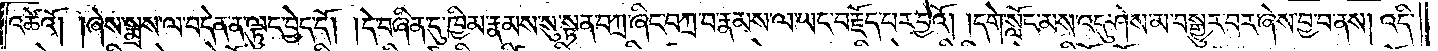འཚེའོ། །ཞེས་སྨྲས་ལ་བདེན་ན་ལྟུང་བྱེད་དོ། །དེ་བཞིན་དུ་ཁྱིམ་རྣམས་སུ་སྟན་བཀྲ་ཞིང་བཀྲ་བ་རྣམས་ལ་ཡང་བརྗོད་པར་བྱའོ། །དགེ་སློང་མས་འདུ་ཤེས་མ་བསྒྱུར་བར་ཞེས་བྱ་བ་ནས། འདི་
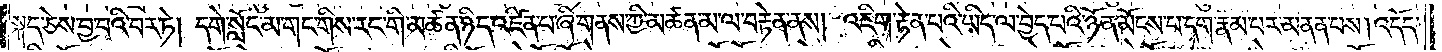སྐད་ཅེས་བྱ་བའི་བར་ཏེ། དགེ་སློང་མ་གང་གིས་རང་གི་མཚན་ཉིད་འཛིན་པ་ཞི་གནས་ཀྱི་མཚན་མ་ལ་བརྟེན་ནས། འཇིག་རྟེན་པའི་ཡིད་ལ་བྱེད་པའི་ཉོན་མོངས་པ་དག་རྣམ་པར་མནན་པས། འདོད་
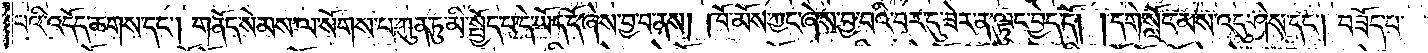པའི་འདོད་ཆགས་དང༌། གནོད་སེམས་ལ་སོགས་པ་ཀུན་ཏུ་མི་སྤྱོད་པ་དེ་ཡོད་དོ་ཞེས་བྱ་བ་ནས། ཁོ་མོས་ཀྱང་ཞེས་བྱ་བའི་བར་དུ་ཟེར་ན་ལྟུང་བྱེད་དོ། །དགེ་སློང་མས་འདུ་ཤེས་དང༌། བཟོད་པ་
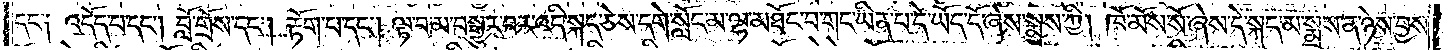དང་༑ འདོད་པ་དང༌། བློ་གྲོས་དང༌། རྟོག་པ་དང༌། ལྟ་བ་མ་བསྒྱུར་བར་འདི་སྐད་ཅེས་དགེ་སློང་མ་ལྷ་མཐོང་བ་གང་ཡིན་པ་དེ་ཡོད་དོ་ཞེས་སྨྲས་ཀྱི། ཁོ་མོས་སོ་ཞེས་དེ་སྐད་མ་སྨྲས་ན་ཉེས་བྱས་
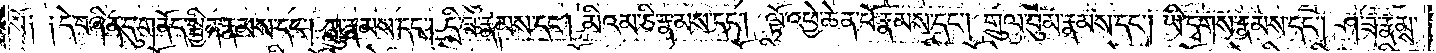སོ༑ ༑དེ་བཞིན་དུ་གནོད་སྦྱིན་རྣམས་དང༌། ཀླུ་རྣམས་དང༌། དྲི་ཟ་རྣམས་དང༌། མིའམ་ཅི་རྣམས་དང༌། ལྟོ་འཕྱེ་ཆེན་པོ་རྣམས་དང༌། གྲུལ་བུམ་རྣམས་དང༌། ཡི་དྭགས་རྣམས་དང༌། ཤ་ཟ་རྣམས་
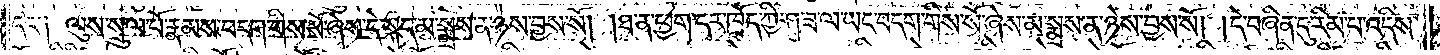དང་༑ ལུས་སྲུལ་པོ་རྣམས་བདག་གིས་སོ་སོ་ཞེས་དེ་སྐད་མ་སྨྲས་ན་ཉེས་བྱས་སོ། །ཐ་ན་ཕྱག་དར་ཁྲོད་ཀྱི་ཤ་ཟ་ལ་ཡང་བདག་གིས་སོ་ཞེས་མ་སྨྲས་ན་ཉེས་བྱས་སོ། །དེ་བཞིན་དུ་རིམ་པ་འདིས་
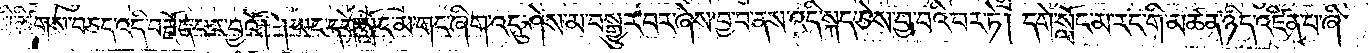སྡོམ་གྱི་ཚིགས་བཅད་འདི་བརྗོད་པར་བྱའོ། །ཡང་དགེ་སློང་མ་གང་ཞིག་འདུ་ཤེས་མ་བསྒྱུར་བར་ཞེས་བྱ་བ་ནས་འདི་སྐད་ཅེས་བྱ་བའི་བར་ཏེ། དགེ་སློང་མ་རང་གི་མཚན་ཉིད་འཛིན་པ་ཞི་
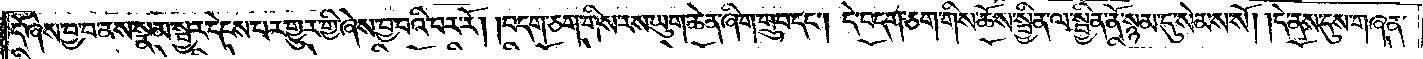དོ་ཞེས་བྱ་བ་ནས་སྣམ་སྦྱར་དེངས་པར་གྱུར་གྱི་ཞེས་བྱ་བའི་བར་རོ། །བདག་ཅག་གིས་རས་ཡུག་ཆེན་ཞིག་གྲུབ་དང༌། དེ་བདག་ཅག་གིས་ཆོས་སྦྱིན་ལ་སྦྱིན་ནོ་སྙམ་དུ་སེམས་སོ། །དེ་ནས་དུས་གཞན་
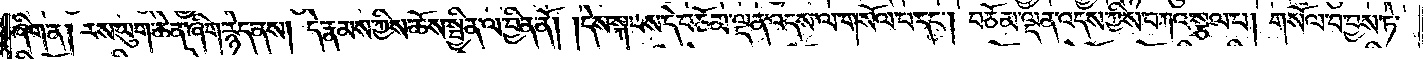ཞིག་ན། རས་ཡུག་ཆེན་ཞིག་རྙེད་ནས། དེ་རྣམས་ཀྱིས་ཆོས་སྦྱིན་ལ་བྱིན་ནོ། །དེས་སྐབས་དེ་བཅོམ་ལྡན་འདས་ལ་གསོལ་པ་དང༌། བཅོམ་ལྡན་འདས་ཀྱིས་བཀའ་སྩལ་པ། གསོལ་བ་བྱས་ཏེ་
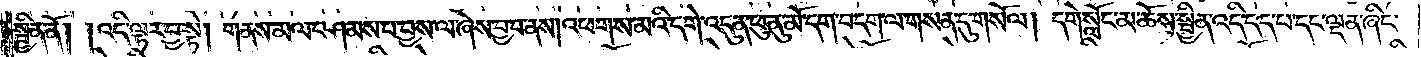སྦྱིན་ནོ། །འདི་ལྟར་བྱ་སྟེ། གནས་མལ་བཤམས་པ་བྱས་ལ་ཞེས་བྱ་བ་ནས། འཕགས་མའི་དགེ་འདུན་ཕུ་ནུ་མོ་དག་བདག་ལ་གསན་དུ་གསོལ། དགེ་སློང་མ་ཆོས་སྦྱིན་འདི་དད་པ་དང་ལྡན་ཞིང་
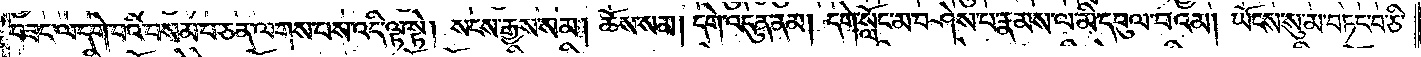བཟང་ལ་དགེ་བའི་བསམ་པ་ཅན་ལགས་པས་འདི་ལྟ་སྟེ། སངས་རྒྱས་སམ། ཆོས་སམ། དགེ་འདུན་ནམ། དགེ་སློང་མ་བཤེས་པ་རྣམས་ལ་མི་དབུལ་བའམ། ཡོངས་སུ་མ་བཏང་བ་ཅི་
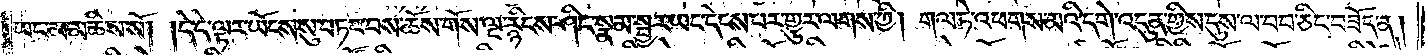ཡང་མ་མཆིས་སོ། །དེ་དེ་ལྟར་ཡོངས་སུ་བཏང་བས་ཆོས་གོས་ལྔ་རྙིངས་ཤིང་སྣམ་སྦྱར་ཡང་དེངས་པར་གྱུར་ལགས་ཀྱི། གལ་ཏེ་འཕགས་མའི་དགེ་འདུན་གྱིས་དུས་ལ་བབ་ཅིང་བཟོད་ན།
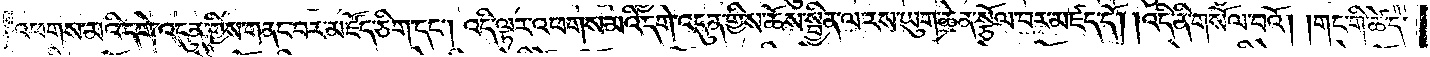འཕགས་མའི་དགེ་འདུན་གྱིས་གནང་བར་མཛོད་ཅིག་དང༌། འདི་ལྟར་འཕགས་མའི་དགེ་འདུན་གྱིས་ཆོས་སྦྱིན་ལ་རས་ཡུག་ཆེན་སྩོལ་བར་མཛད་དོ། །འདི་ནི་གསོལ་བའོ། །གང་གི་ཚེ་དེ་
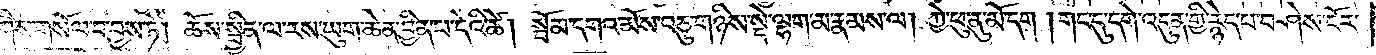དག་གིས་གསོལ་བ་བྱས་ཏེ། ཆོས་སྦྱིན་ལ་རས་ཡུག་ཆེན་བྱིན་པ་དེའི་ཚེ། སྦོམ་དགའ་མོས་བཅུ་གཉིས་སྡེ་ལྷག་མ་རྣམས་ལ། ཀྱེ་ཕུ་ནུ་མོ་དག །གང་དུ་དགེ་འདུན་གྱི་རྙེད་པ་བཤེས་ངོར་
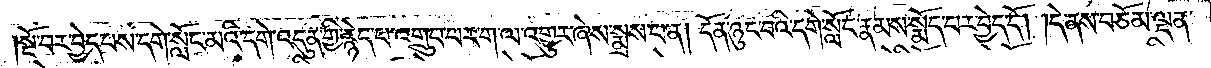སྔོ་བར་བྱེད་པས་དགེ་སློང་མའི་དགེ་འདུན་གྱི་རྙེད་པ་འགྲུབ་པར་ག་ལ་འགྱུར་ཞེས་སྨྲས་པ་ན། དོན་ཉུང་བའི་དགེ་སློང་རྣམས་སྨོད་པར་བྱེད་དོ། །དེ་ནས་བཅོམ་ལྡན་
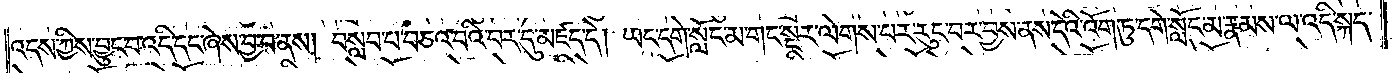འདས་ཀྱིས་བྱུང་བ་འདི་དང་ཞེས་བྱ་བ་ནས། བསླབ་པ་བཅའ་བའི་བར་དུ་མཛད་དེ། ཡང་དགེ་སློང་མ་གང་སྔར་ལེགས་པར་རུང་བར་བྱས་ནས་དེའི་འོག་ཏུ་དགེ་སློང་མ་རྣམས་ལ་འདི་སྐད་
